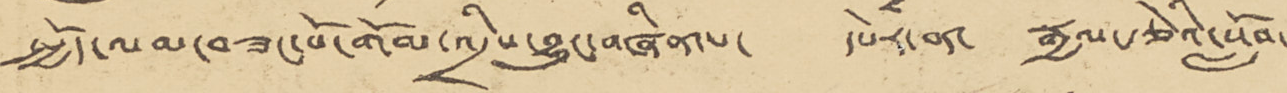སྤྱོད་ལམ་བཟང་པོ་གོམ་འདྲིས་བྱུང་བཞིན་པ་ དཔེར་ན་ རྒྱལ་རྩེའི་སློབ་
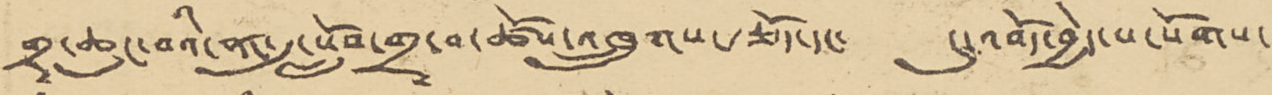གྲྭ་ཆུང་བའི་ནང་དུ་སློབ་གྲྭ་བ་ཚོས་འཁྲུགས་རྩོད་དང་ ངུ་འབོད་བྱེད་པ་སོགས་
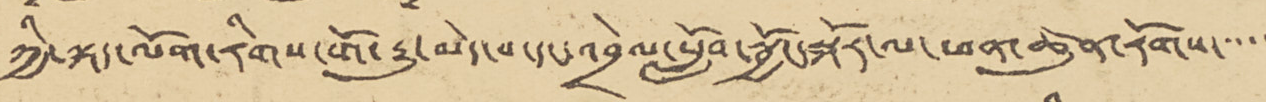ཀྱི་ལྐད་ལོག་རིགས་གོ་རྒྱུ་མེད་པ་དང་འབྲེལ་སློབ་སྦྱོང་སྐོར་ལ་ཕན་ཚུན་རོགས་་་་་
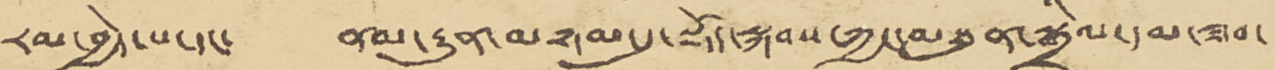རམ་བྱེད་པ་དང་ ནམ་རྒྱུན་མཉམ་དུ་སྡོད་སྐབས་ཀྱང་མཐུན་སྒྲིལ་དམམ་ཟབ་
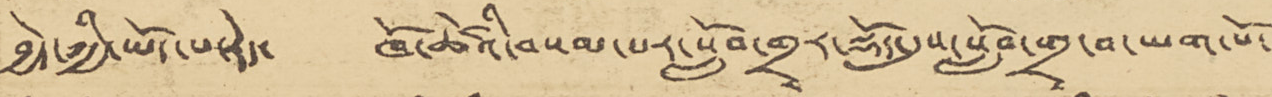བྱེད་ཀྱི་ཡོད་པ་རེད་ ཁོ་ཚོའི་བསམ་པར་སློབ་གྲྭར་སྡོད་དུས་སློབ་གྲྭ་བ་ཡག་པོ་
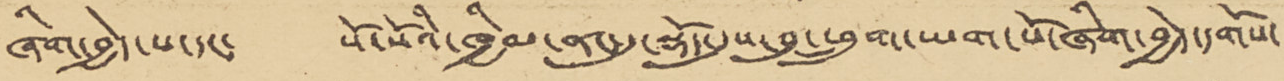ཞིག་བྱེད་པ་དང་ སོ་སོའི་ཁྱིམ་ནང་དུ་སྡོད་དུས་བུ་ཕྲུག་ཡག་པོ་ཞིག་བྱེད་དགོས་
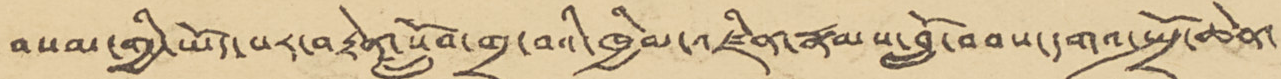བསམ་གྱི་ཡོད་པར་བརྟེན་སློབ་གྲྭ་བའི་ཁྱིམ་འཛིན་རྣམས་བློ་བབས་དགའ་སྤྲོ་ཆེན་
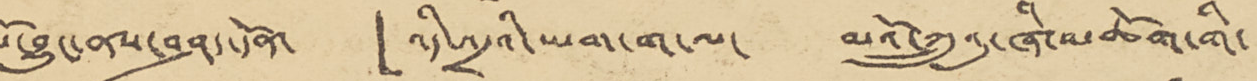པོ་བྱུང་ནས་བཤད་དོན་ 「འདི་འདྲའི་ཡག་ག་ལ་ མའོ་ཀྲུའུ་ཞི་མཆོག་གི་
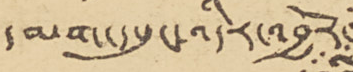དམག་དཔུང་འདིར་འབྱོར་
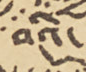བའི་
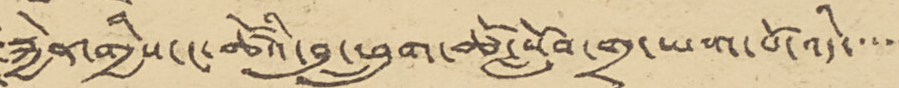རྐྱེན་གྱིས་ང་ཚོའི་བུ་ཕྲུག་ཚོ་སློབ་གྲྭ་ཡག་པོ་འདི་་་་་
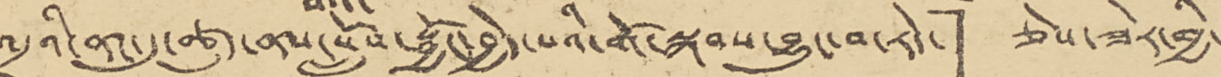འདྲའི་ནང་དུ་ཚུད་ནས་སློབ་སྦྱོང་བྱེད་པའི་གོ་སྐབས་བྱུང་བ་རེད་」 ཅེས་ཟེར་གྱི་
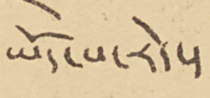ཡོད་པ་རེད་།
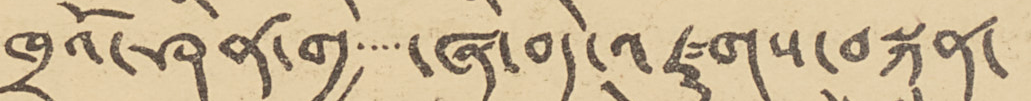ཁྲའོ་ཤིན་གྱི་་་་་ཞི་བདེ་འཛུགས་བསྐྲུན་
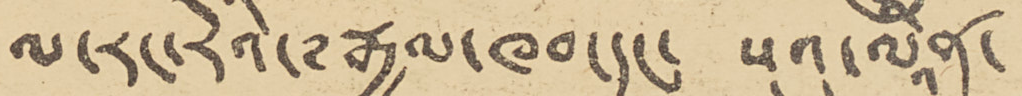ལ་རང་རེའི་༸རྒྱལ་ཁབ་དང་ སུའུ་ལཱིན་
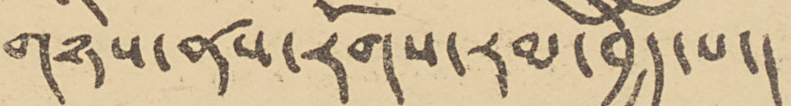གཉིས་ནས་རོགས་རམ་བྱེད་པ་།
